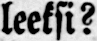leeksi?
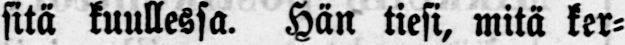sitä kuullessa. Hän tiesi, mitä ker-
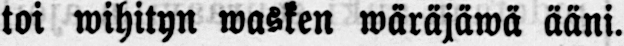toi wihityn wasken wäräjäwä ääni.
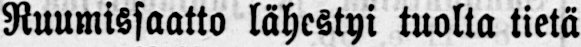Ruumissaatto lähestyi tuolta tietä
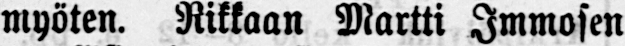myöten. Rikkaan Martti Immosen
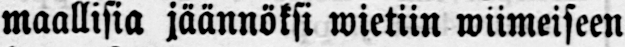maallisia jäännöksi wietiin wiimeiseen
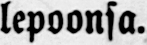lepoonsa.
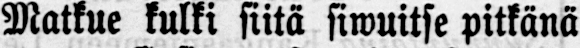Matkue kulki siitä siwuitse pitkänä
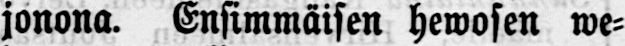jonona. Ensimmäisen hewosen we-
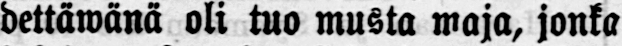dettäwänä oli tuo musta maja, jonka
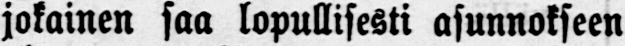jokainen saa lopullisesti asunnokseen
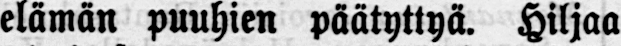elämän puuhien päätyttyä. Hiljaa
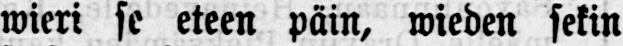wieri se eteen päin, wieden sekin
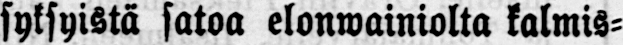syksyistä satoa elonwainiolta kalmis-
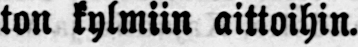ton kylmiin aittoihin.
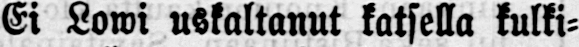Ei Lowi uskaltanut katsella kulki-
